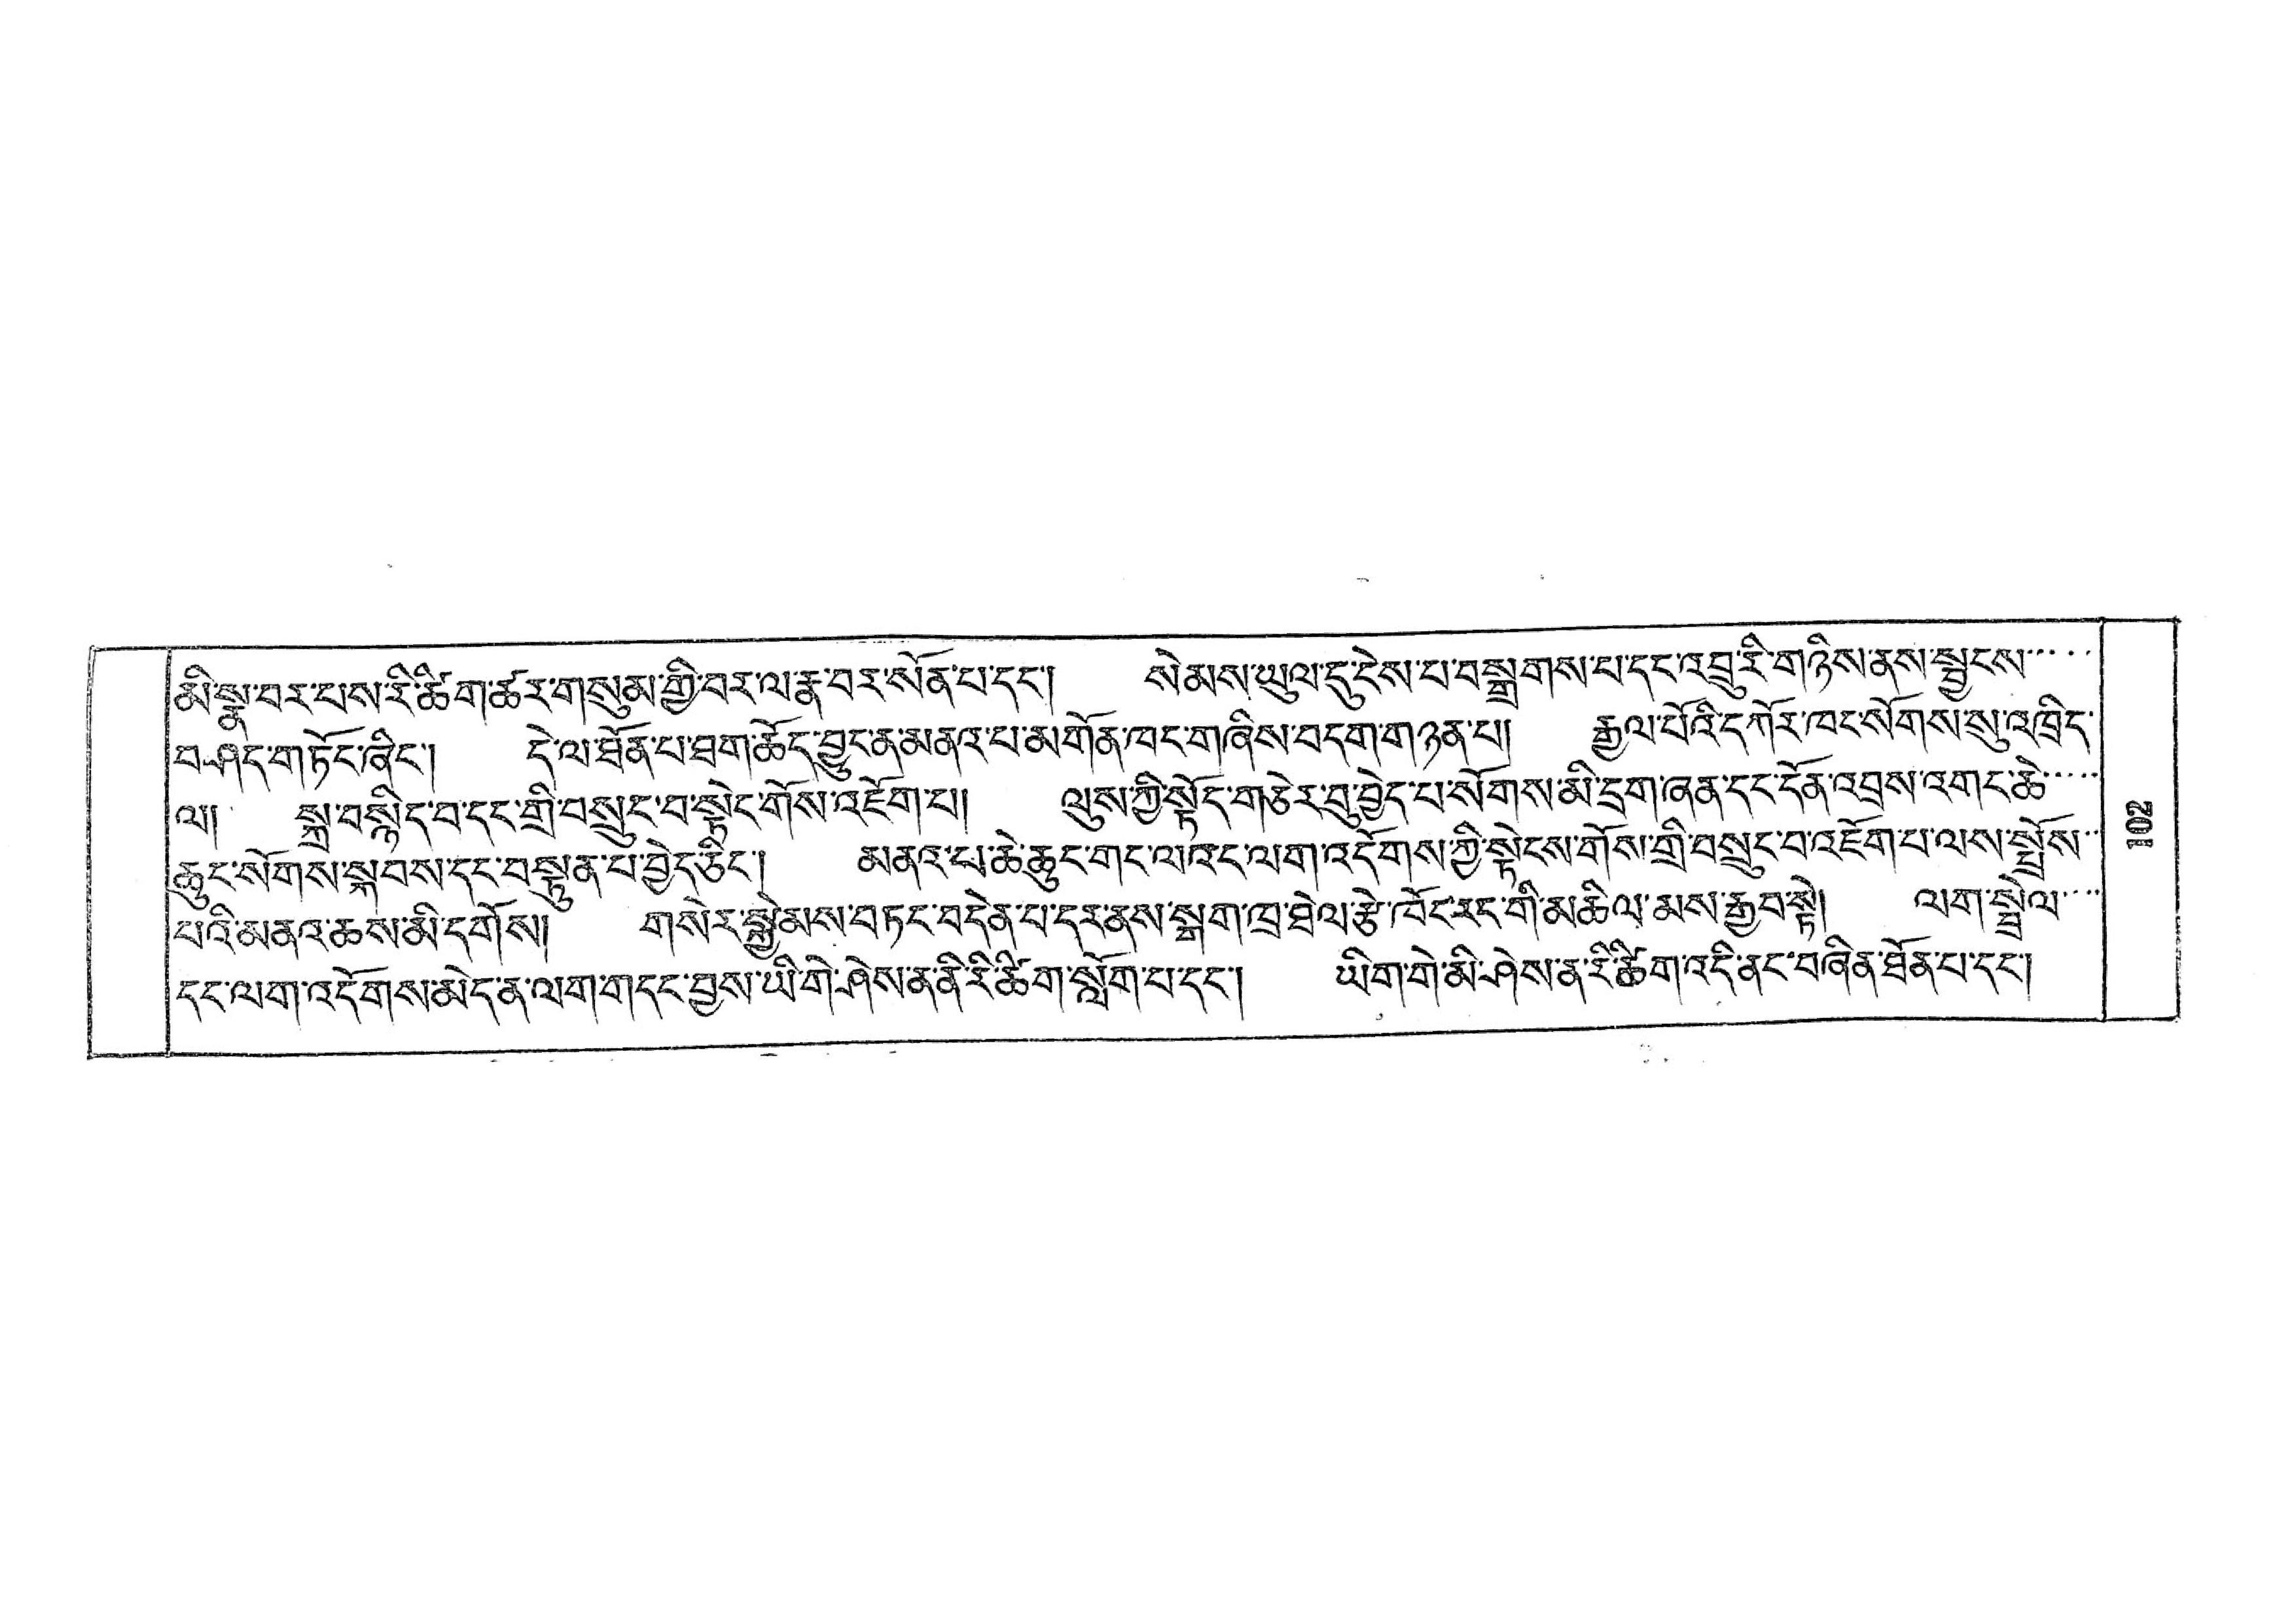མི་སྣ་བར་པས་རི་ཚིག་ཚར་གསུམ་གྱི་བར་ལ་རྣ་བར་སོན་པ་དང་། སེམས་ཡུལ་དུ་ངེས་པ་བསྒྲགས་པ་དང་འབྲུ་རི་གཉིས་ནས་སྦྱངས་་་་
བཤད་གཏོང་ཞིང་། དེ་ལ་ཐོན་པ་ཐག་ཆོད་བྱུང་ན་མནའ་པ་མགོན་ཁང་གཞིས་བདག་གཉན་པ། རྒྱལ་པོའི་དཀོར་ཁང་སོགས་སུ་འཁྲིད་
ལ། སྐྲ་བསྙིད་བ་དང་གྲི་བསྲུང་བ་སྟེང་གོས་འཇོག་པ། ལུས་ཀྱི་སྟོད་གཅེར་བུ་བྱེད་པ་སོགས་མི་དྲག་ཞན་དང་དོན་འབྲས་འགང་ཆེ་་་་་
ཆུང་སོགས་སྐབས་དང་བསྟུན་པ་བྱེད་ཅིང་། མནའ་པ་ཆེ་ཆུང་གང་ལའང་ལག་འདོགས་ཀྱི་སྟེངས་གོས་གྲི་བསྲུང་བ་འཇོག་པ་ལས་སྤྲོས་་
པའི་མནའ་ཆས་མི་དགོས། གསེར་སྐྱེམས་བཏང་བདེན་པ་དར་ནས་སྒག་ཁྲ་ཐེལ་རྩེ་ཁོང་རང་གི་མཆིལ་མས་རྒྱབ་སྟེ། ལག་སྦྲེལ་་་་
དང་ལག་འདོགས་མེད་ན་ལག་གདང་བྱས་ཡི་གེ་ཤེས་ན་ནི་རི་ཚིག་སློག་པ་དང་། ཡིག་གེ་མི་ཤེས་ན་རི་ཚིག་འདི་ནང་བཞིན་ཐོན་པ་དང་།
